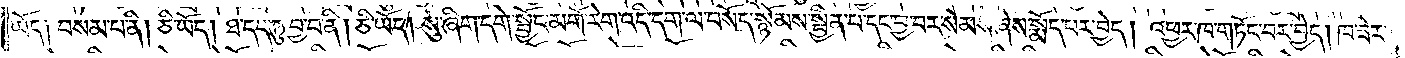ཡོད༑ བསམ་པ་ནི། ཅི་ཡོད། ཐ་དད་ཏུ་བྱ་བ་ནི། ཅི་ཡོད། སུ་ཞིག་དགེ་སྦྱོང་མགོ་རེག་འདི་དག་ལ་བསོད་སྙོམས་སྦྱིན་པ་དང་བྱ་བར་སེམས་ཞེས་སྨོད་པར་བྱེད། འཕྱར་ཁ་གཏོང་བར་བྱེད། ཁ་ཟེར་
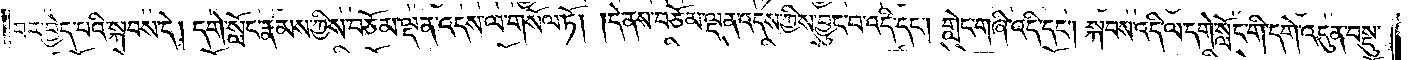བར་བྱེད་པའི་སྐབས་དེ། དགེ་སློང་རྣམས་ཀྱིས་བཅོམ་ལྡན་འདས་ལ་གསོལ་ཏོ། །དེ་ནས་བཅོམ་ལྡན་འདས་ཀྱིས་བྱུང་བ་འདི་དང༌། གླེང་གཞི་འདི་དང༌། སྐབས་འདི་ལ་དགེ་སློང་གི་དགེ་འདུན་བསྡུ་
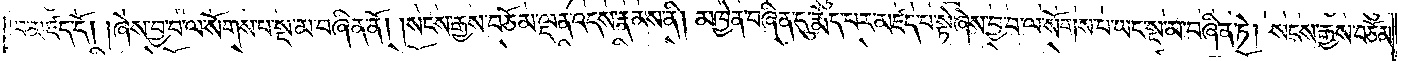བ་མཛད་དོ། །ཞེས་བྱ་བ་ལ་སོགས་པ་སྔ་མ་བཞིན་ནོ། །སངས་རྒྱས་བཅོམ་ལྡན་འདས་རྣམས་ནི། མཁྱེན་བཞིན་དུ་རྨེད་པར་མཛད་པ་སྟེ་ཞེས་བྱ་བ་ལ་སོགས་པ་ཡང་སྔ་མ་བཞིན་ཏེ། སངས་རྒྱས་བཅོམ་
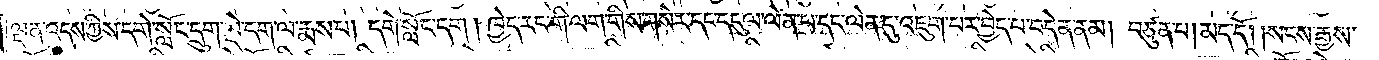ལྡན་འདས་ཀྱིས་དགེ་སློང་དྲུག་སྡེ་དག་ལ་རྨས་པ། དགེ་སློང་དག། ཁྱེད་རང་གི་ལག་གིས་གསེར་དང་དངུལ་ལེན་པ་དང་ལེན་དུ་འཇུག་པར་བྱེད་པ་བདེན་ནམ། བཙུན་པ། མད་དོ། །སངས་རྒྱས་
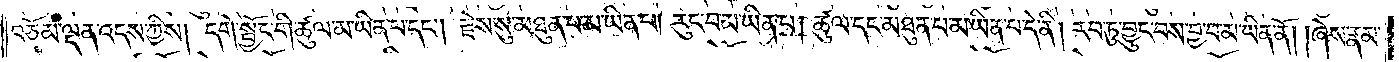བཅོམ་ལྡན་འདས་ཀྱིས། དགེ་སྦྱོང་གི་ཚུལ་མ་ཡིན་པ་དང༌། རྗེས་སུ་མཐུན་པ་མ་ཡིན་པ། རུང་བ་མ་ཡིན་པ། ཚུལ་དང་མཐུན་པ་མ་ཡིན་པ་དེ་ནི། རབ་ཏུ་བྱུང་བས་བྱ་བ་མ་ཡིན་ནོ། །ཞེས་རྣམ་
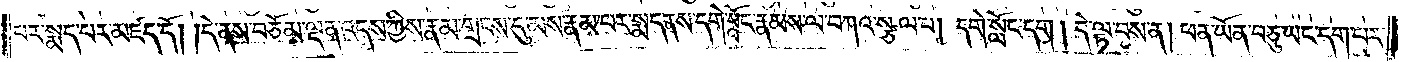པར་སྨད་པར་མཛད་དོ། །དེ་ནས་བཅོམ་ལྡན་འདས་ཀྱིས་རྣམ་གྲངས་དུ་མས་རྣམ་པར་སྨད་ནས་དགེ་སློང་རྣམས་ལ་བཀའ་སྩལ་པ། དགེ་སློང་དག། དེ་ལྟ་བས་ན། ཕན་ཡོན་བཅུ་ཡང་དག་པར་
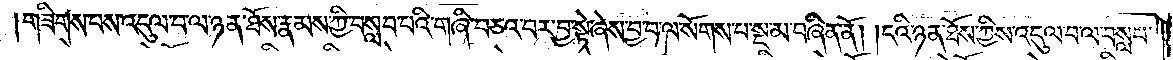གཟིགས་པས་འདུལ་བ་ལ་ཉན་ཐོས་རྣམས་ཀྱི་བསླབ་པའི་གཞི་བཅའ་བར་བྱ་སྟེ་ཞེས་བྱ་བ་ལ་སོགས་པ་སྔ་མ་བཞིན་ནོ། །ངའི་ཉན་ཐོས་ཀྱིས་འདུལ་བ་ལ་བསླབ་
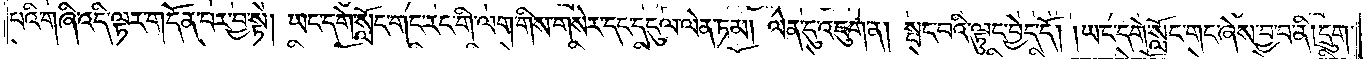པའི་གཞི་འདི་ལྟར་གདོན་པར་བྱ་སྟེ། ཡང་དགེ་སློང་གང་རང་གི་ལག་གིས་གསེར་དང་དངུལ་ལེན་ཏམ། ལེན་དུ་འཇུག་ན། སྤང་བའི་ལྟུང་བྱེད་དོ། །ཡང་དགེ་སློང་གང་ཞེས་བྱ་བ་ནི། དྲུག་
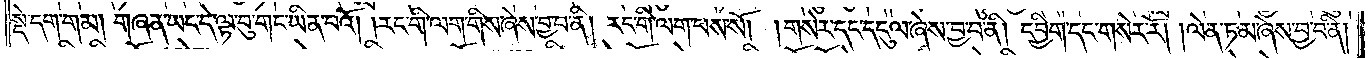སྡེ་དག་གམ། གཞན་ཡང་དེ་ལྟ་བུ་གང་ཡིན་པའོ། །རང་གི་ལག་གིས་ཞེས་བྱ་བ་ནི། རང་གི་ལག་པས་སོ། །གསེར་དང་དངུལ་ཞེས་བྱ་བ་ནི། དབྱིག་དང་གསེར་རོ། །ལེན་ཏམ་ཞེས་བྱ་བ་ནི།
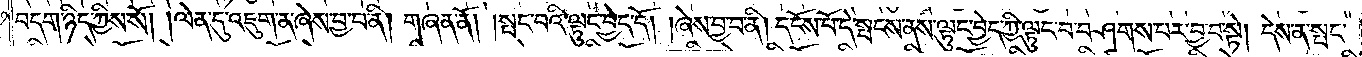བདག་ཉིད་ཀྱིས་སོ། །ལེན་དུ་འཇུག་ན་ཞེས་བྱ་བ་ནི། གཞན་ནོ། སྤང་བའི་ལྟུང་བྱེད་དོ། །ཞེས་བྱ་བ་ནི། དངོས་པོ་དེ་སྤངས་ནས་ལྟུང་བྱེད་ཀྱི་ལྟུང་བ་བཤགས་པར་བྱ་བ་སྟེ། དེས་ན་སྤང་
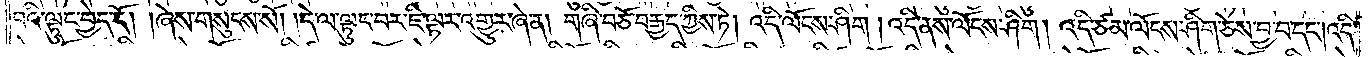བའི་ལྟུང་བྱེད་དོ། །ཞེས་གསུངས་སོ། །དེ་ལ་ལྟུང་བར་ཇི་ལྟར་འགྱུར་ཞེ་ན། གཞི་བཅོ་བརྒྱད་ཀྱིས་ཏེ། འདི་ལོངས་ཤིག། འདི་ནས་ལོངས་ཤིག། འདི་ཙམ་ལོངས་ཤིག་ཅེས་བྱ་བ་དང༌། འདི་
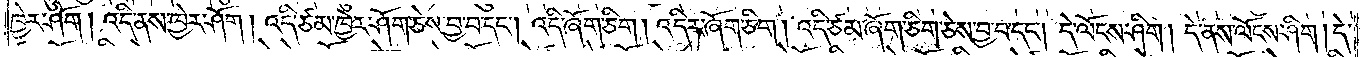ཁྱེར་ཤོག། འདི་ནས་ཁྱེར་ཤོག། འདི་ཙམ་ཁྱེར་ཤོག་ཅེས་བྱ་བ་དང༌། འདི་ཞོག་ཅིག། འདིར་ཞོག་ཅིག། འདི་ཙམ་ཞོག་ཅིག་ཅེས་བྱ་བ་དང༌། དེ་ལོངས་ཤིག། དེ་ནས་ལོངས་ཤིག། དེ་
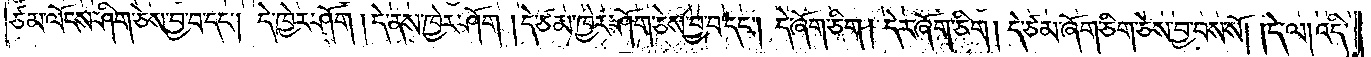ཙམ་ལོངས་ཤིག་ཅེས་བྱ་བ་དང༌། དེ་ཁྱེར་ཤོག། དེ་ནས་ཁྱེར་ཤོག། དེ་ཙམ་ཁྱེར་ཤོག་ཅེས་བྱ་བ་དང༌། དེ་ཞོག་ཅིག། དེར་ཞོག་ཅིག། དེ་ཙམ་ཞོག་ཅིག་ཅེས་བྱ་བས་སོ། །དེ་ལ། འདི་
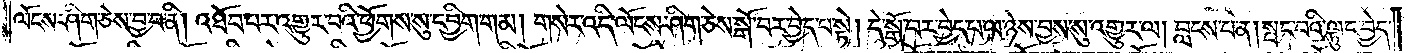ལོངས་ཤིག་ཅེས་བྱ་བ་ནི། འཐོབ་པར་འགྱུར་བའི་ཕྱོགས་སུ་དབྱིག་གམ། གསེར་འདི་ལོངས་ཤིག་ཅེས་སྒོ་བར་བྱེད་པ་སྟེ། དེ་སྒོ་བར་བྱེད་པ་ལ་ཉེས་བྱས་སུ་འགྱུར་ལ། བླངས་པ་ན། སྤང་བའི་ལྟུང་བྱེད་
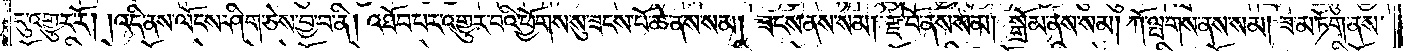དུ་འགྱུར་རོ། །འདི་ནས་ལོངས་ཤིག་ཅེས་བྱ་བ་ནི། འཐོབ་པར་འགྱུར་བའི་ཕྱོགས་སུ་ཟངས་པོ་ཆེ་ནས་སམ། ཟངས་ནས་སམ། རྫ་བོ་ནས་སམ། སྒྲོམ་ནས་སམ། ཀོ་ལྤགས་ནས་སམ། ཟ་མ་ཏོག་ནས་
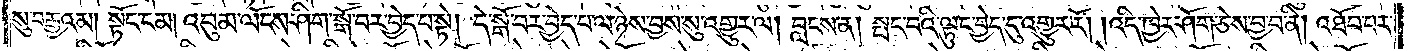སུ་བརྒྱའམ། སྟོང་ངམ། འབུམ་ལོངས་ཤིག་སྒོ་བར་བྱེད་པ་སྟེ། དེ་སྒོ་བར་བྱེད་པ་ལ་ཉེས་བྱས་སུ་འགྱུར་ལ། བླངས་ན། སྤང་བའི་ལྟུང་བྱེད་དུ་འགྱུར་རོ། །འདི་ཁྱེར་ཤོག་ཅེས་བྱ་བ་ནི། འཐོབ་པར་
